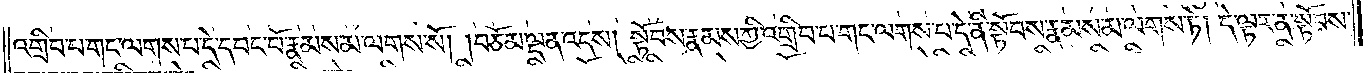འགྲིབ་པ་གང་ལགས་པ་དེ་དབང་པོ་རྣམས་མ་ལགས་སོ། །བཅོམ་ལྡན་འདས། སྟོབས་རྣམས་ཀྱི་འགྲིབ་པ་གང་ལགས་པ་དེ་ནི་སྟོབས་རྣམས་མ་ལགས་ཏེ། དེ་ལྟར་ན་སྟོབས་
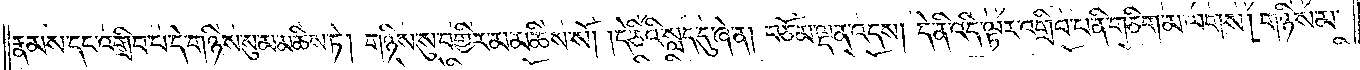རྣམས་དང་འགྲིབ་པ་དེ་གཉིས་སུ་མ་མཆིས་ཏེ། གཉིས་སུ་བགྱིར་མ་མཆིས་སོ། །དེ་ཅིའི་སླད་དུ་ཞེ་ན། བཅོམ་ལྡན་འདས། དེ་ནི་འདི་ལྟར་འགྲིབ་པ་ནི་གཅིག་མ་ལགས། གཉིས་མ་
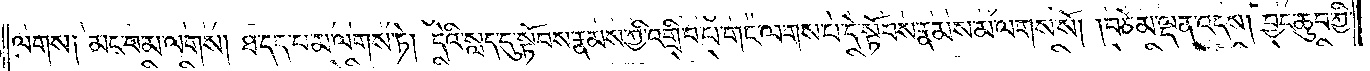ལགས། མང་བ་མ་ལགས། ཐ་དད་པ་མ་ལགས་ཏེ། དེའི་སླད་དུ་སྟོབས་རྣམས་ཀྱི་འགྲིབ་པ་གང་ལགས་པ་དེ་སྟོབས་རྣམས་མ་ལགས་སོ། །བཅོམ་ལྡན་འདས། བྱང་ཆུབ་ཀྱི་
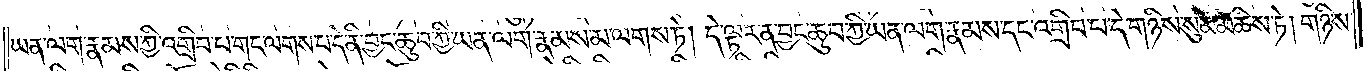ཡན་ལག་རྣམས་ཀྱི་འགྲིབ་པ་གང་ལགས་པ་དེ་ནི་བྱང་ཆུབ་ཀྱི་ཡན་ལག་རྣམས་མ་ལགས་ཏེ། དེ་ལྟར་ན་བྱང་ཆུབ་ཀྱི་ཡན་ལག་རྣམས་དང་འགྲིབ་པ་དེ་གཉིས་སུ་མ་མཆིས་ཏེ། གཉིས་
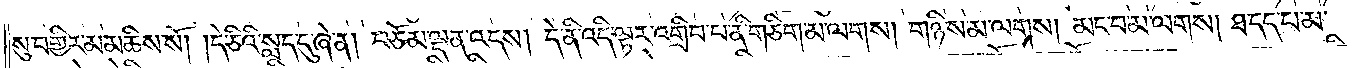སུ་བགྱིར་མ་མཆིས་སོ། །དེ་ཅིའི་སླད་དུ་ཞེ་ན། བཅོམ་ལྡན་འདས། དེ་ནི་འདི་ལྟར་འགྲིབ་པ་ནི་གཅིག་མ་ལགས། གཉིས་མ་ལགས། མང་བ་མ་ལགས། ཐ་དད་པ་
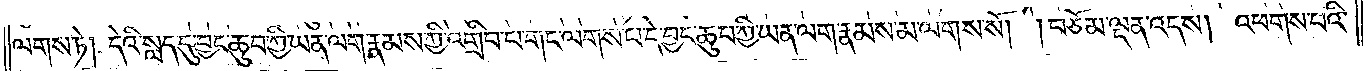མ་ལགས་ཏེ། དེའི་སླད་དུ་བྱང་ཆུབ་ཀྱི་ཡན་ལག་རྣམས་ཀྱི་འགྲིབ་པ་གང་ལགས་པ་དེ་བྱང་ཆུབ་ཀྱི་ཡན་ལག་རྣམས་མ་ལགས་སོ། །བཅོམ་ལྡན་འདས། འཕགས་པའི་
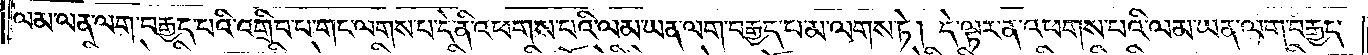ལམ་ཡན་ལག་བརྒྱད་པའི་འགྲིབ་པ་གང་ལགས་པ་དེ་ནི་འཕགས་པའི་ལམ་ཡན་ལག་བརྒྱད་པ་མ་ལགས་ཏེ། དེ་ལྟར་ན་འཕགས་པའི་ལམ་ཡན་ལག་བརྒྱད་
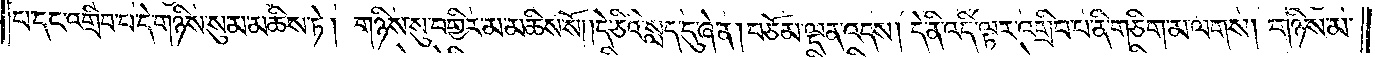པ་དང་འགྲིབ་པ་དེ་གཉིས་སུ་མ་མཆིས་ཏེ། གཉིས་སུ་བགྱིར་མ་མཆིས་སོ། །དེ་ཅིའི་སླད་དུ་ཞེ་ན། བཅོམ་ལྡན་འདས། དེ་ནི་འདི་ལྟར་འགྲིབ་པ་ནི་གཅིག་མ་ལགས། གཉིས་མ་
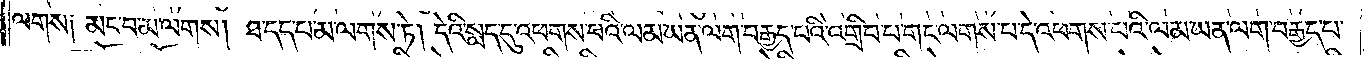ལགས། མང་བ་མ་ལགས། ཐ་དད་པ་མ་ལགས་ཏེ། དེའི་སླད་དུ་འཕགས་པའི་ལམ་ཡན་ལག་བརྒྱད་པའི་འགྲིབ་པ་གང་ལགས་པ་དེ་འཕགས་པའི་ལམ་ཡན་ལག་བརྒྱད་པ་
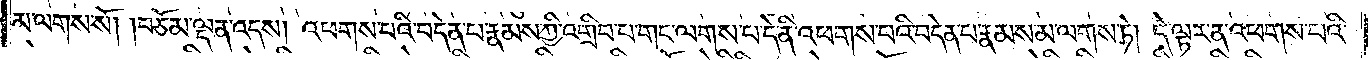མ་ལགས་སོ། །བཅོམ་ལྡན་འདས། འཕགས་པའི་བདེན་པ་རྣམས་ཀྱི་འགྲིབ་པ་གང་ལགས་པ་དེ་ནི་འཕགས་པའི་བདེན་པ་རྣམས་མ་ལགས་ཏེ། དེ་ལྟར་ན་འཕགས་པའི་
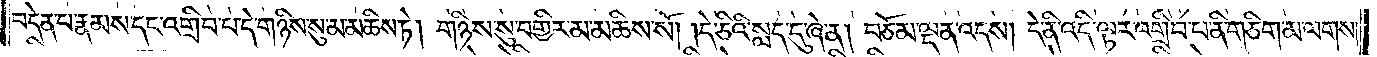བདེན་པ་རྣམས་དང་འགྲིབ་པ་དེ་གཉིས་སུ་མ་མཆིས་ཏེ། གཉིས་སུ་བགྱིར་མ་མཆིས་སོ། །དེ་ཅིའི་སླད་དུ་ཞེ་ན། བཅོམ་ལྡན་འདས། དེ་ནི་འདི་ལྟར་འགྲིབ་པ་ནི་གཅིག་མ་ལགས།
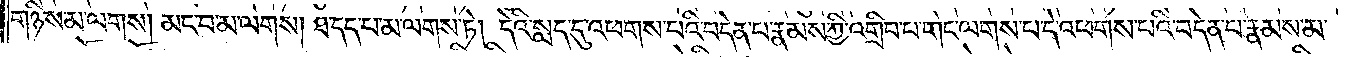གཉིས་མ་ལགས། མང་བ་མ་ལགས། ཐ་དད་པ་མ་ལགས་ཏེ། དེའི་སླད་དུ་འཕགས་པའི་བདེན་པ་རྣམས་ཀྱི་འགྲིབ་པ་གང་ལགས་པ་དེ་འཕགས་པའི་བདེན་པ་རྣམས་མ་
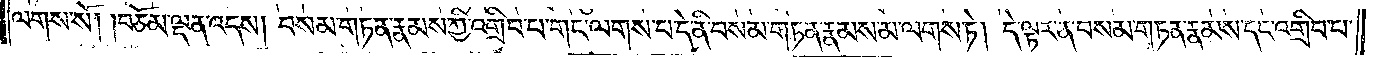ལགས་སོ། །བཅོམ་ལྡན་འདས། བསམ་གཏན་རྣམས་ཀྱི་འགྲིབ་པ་གང་ལགས་པ་དེ་ནི་བསམ་གཏན་རྣམས་མ་ལགས་ཏེ། དེ་ལྟར་ན་བསམ་གཏན་རྣམས་དང་འགྲིབ་པ་
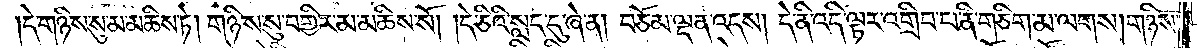དེ་གཉིས་སུ་མ་མཆིས་ཏེ། གཉིས་སུ་བགྱིར་མ་མཆིས་སོ། །དེ་ཅིའི་སླད་དུ་ཞེ་ན། བཅོམ་ལྡན་འདས། དེ་ནི་འདི་ལྟར་འགྲིབ་པ་ནི་གཅིག་མ་ལགས། གཉིས་
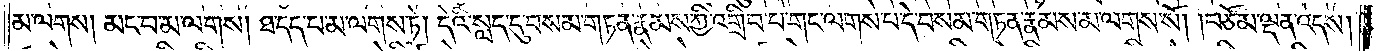མ་ལགས། མང་བ་མ་ལགས། ཐ་དད་པ་མ་ལགས་ཏེ། དེའི་སླད་དུ་བསམ་གཏན་རྣམས་ཀྱི་འགྲིབ་པ་གང་ལགས་པ་དེ་བསམ་གཏན་རྣམས་མ་ལགས་སོ། །བཅོམ་ལྡན་འདས།
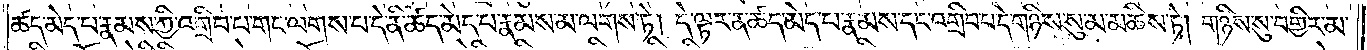ཚད་མེད་པ་རྣམས་ཀྱི་འགྲིབ་པ་གང་ལགས་པ་དེ་ནི་ཚད་མེད་པ་རྣམས་མ་ལགས་ཏེ། དེ་ལྟར་ན་ཚད་མེད་པ་རྣམས་དང་འགྲིབ་པ་དེ་གཉིས་སུ་མ་མཆིས་ཏེ། གཉིས་སུ་བགྱིར་མ་
